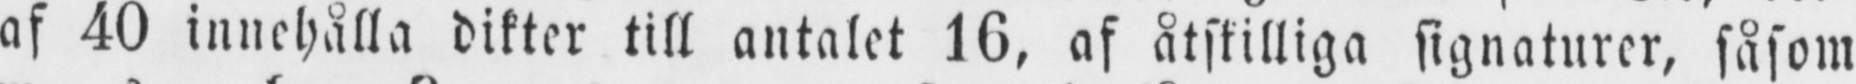af 40 innehålla dikter till antalet 16, af åtskilliga signaturer, såsom
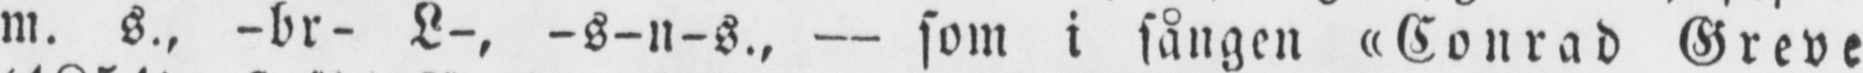m. s., -br- L-, -s-n-s., — som i sången «Conrad Greve
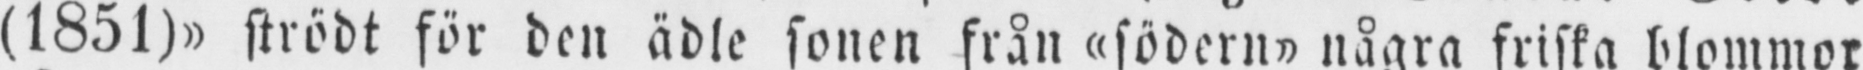(1851)» strödt för den ädle sonen från "södern" några friska blommor
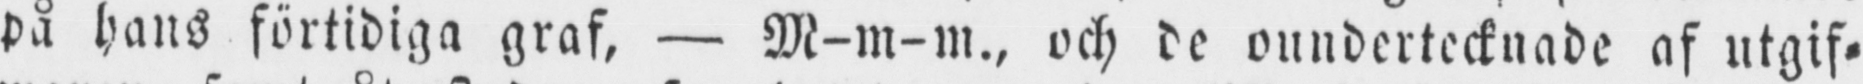på hans förtidiga graf, — M-m-m., och de oundertecknade af utgif-
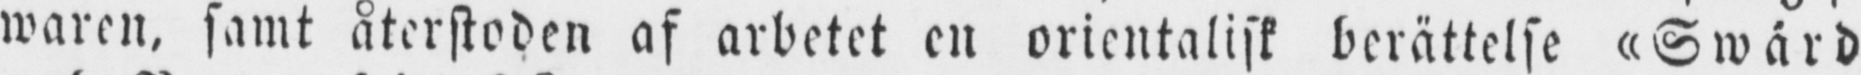waren, samt återstoden af arbetet en orientalisk berättelse «Swärd
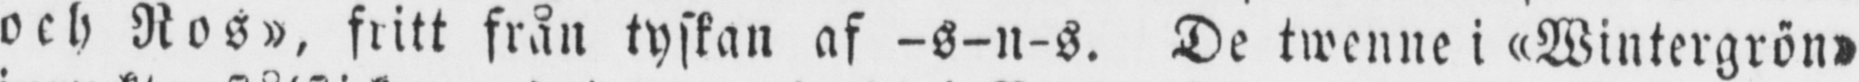och Ros», fritt från tyskan af -s-n-s. De twenne i «Wintergrön»
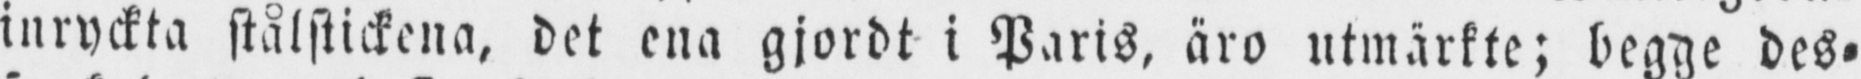inryckta stålstickena, det ena gjordt i Paris, äro utmärkte; begge des-
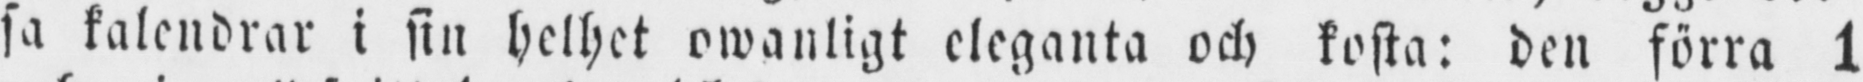sa kalendrar i sin helhet owanligt eleganta och kosta: den förra 1
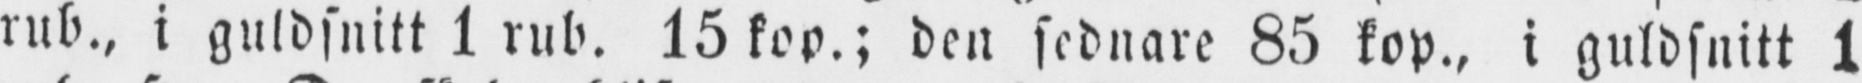rub., i guldsnitt 1 rub. 15 kop.; den sednare 85 kop., i guldsnitt 1
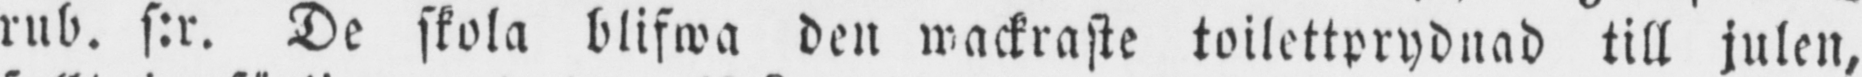rub. s:r. De skola blifwa den wackraste toilettprydnad till julen,
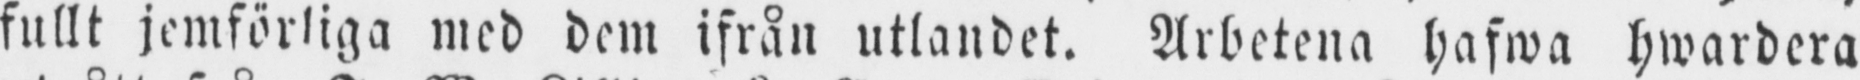fullt jemförliga med dem ifrån utlandet. Arbetena hafwa hwardera
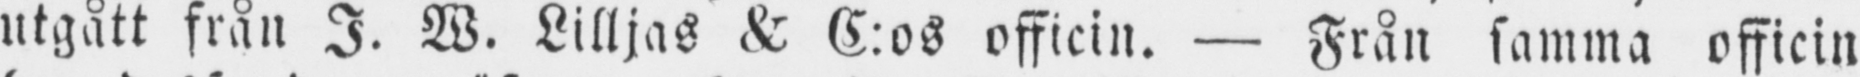utgått från I. W. Lilljas & C:os officin. — Från samma officin
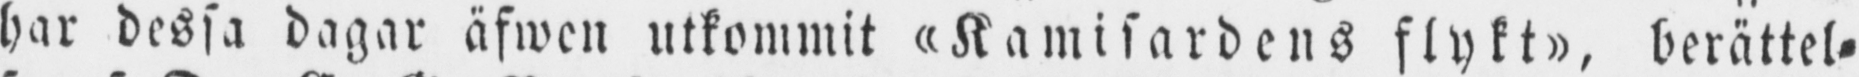har dessa dagar äfwen utkommit «Kamisardens flykt», berättel-
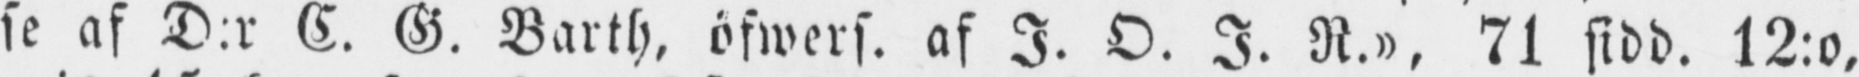se af D:r C. G. Barth, öfwers. af I. D. I. R.», 71 sidd. 12:o,
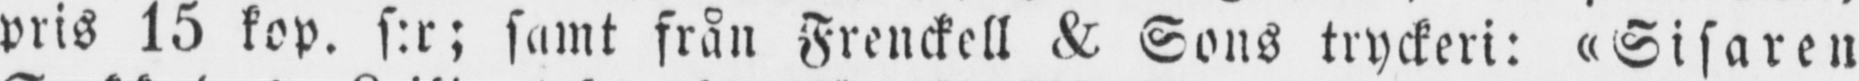pris 15 kop. s:r; samt från Frenckell & Sons tryckeri: «Sisaren
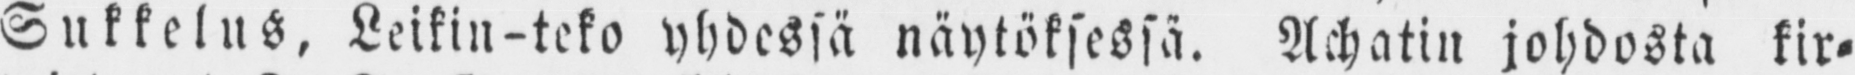Sukkelus, Leikin-teko yhdessä näytöksessä. Achatin johdosta kir-
